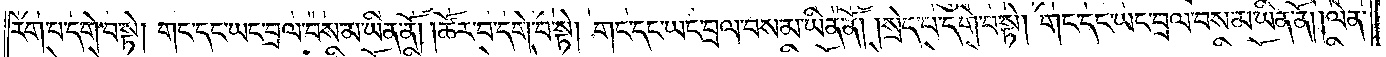རེག་པ་དགེ་བ་སྟེ། གང་དང་ཡང་བྲལ་བས་མ་ཡིན་ནོ། །ཚོར་བ་དགེ་བ་སྟེ། གང་དང་ཡང་བྲལ་བས་མ་ཡིན་ནོ། །སྲེད་པ་དགེ་བ་སྟེ། གང་དང་ཡང་བྲལ་བས་མ་ཡིན་ནོ། །ལེན་
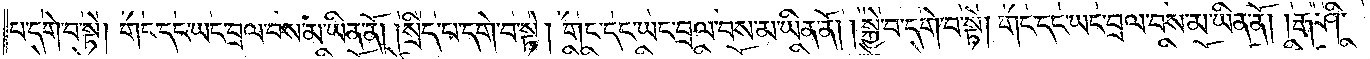པ་དགེ་བ་སྟེ། གང་དང་ཡང་བྲལ་བས་མ་ཡིན་ནོ། །སྲིད་པ་དགེ་བ་སྟེ། གང་དང་ཡང་བྲལ་བས་མ་ཡིན་ནོ། །སྐྱེ་བ་དགེ་བ་སྟེ། གང་དང་ཡང་བྲལ་བས་མ་ཡིན་ནོ། །རྒ་ཤི་
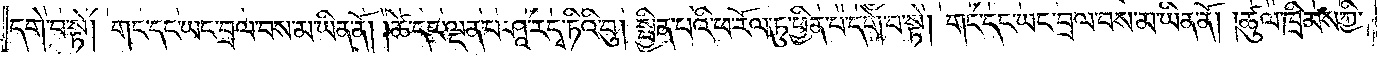དགེ་བ་སྟེ། གང་དང་ཡང་བྲལ་བས་མ་ཡིན་ནོ། །ཚེ་དང་ལྡན་པ་ཤཱ་ར་དྭ་ཏིའི་བུ། སྦྱིན་པའི་ཕ་རོལ་ཏུ་ཕྱིན་པ་དགེ་བ་སྟེ། གང་དང་ཡང་བྲལ་བས་མ་ཡིན་ནོ། །ཚུལ་ཁྲིམས་ཀྱི་
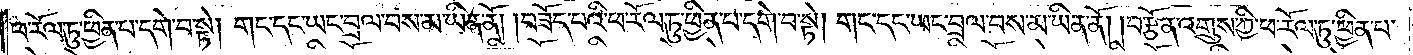ཕ་རོལ་ཏུ་ཕྱིན་པ་དགེ་བ་སྟེ། གང་དང་ཡང་བྲལ་བས་མ་ཡིན་ནོ། །བཟོད་པའི་ཕ་རོལ་ཏུ་ཕྱིན་པ་དགེ་བ་སྟེ། གང་དང་ཡང་བྲལ་བས་མ་ཡིན་ནོ། །བརྩོན་འགྲུས་ཀྱི་ཕ་རོལ་ཏུ་ཕྱིན་པ་
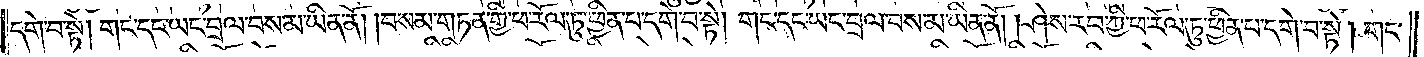དགེ་བ་སྟེ། གང་དང་ཡང་བྲལ་བས་མ་ཡིན་ནོ། །བསམ་གཏན་གྱི་ཕ་རོལ་ཏུ་ཕྱིན་པ་དགེ་བ་སྟེ། གང་དང་ཡང་བྲལ་བས་མ་ཡིན་ནོ། །ཤེས་རབ་ཀྱི་ཕ་རོལ་ཏུ་ཕྱིན་པ་དགེ་བ་སྟེ། གང་
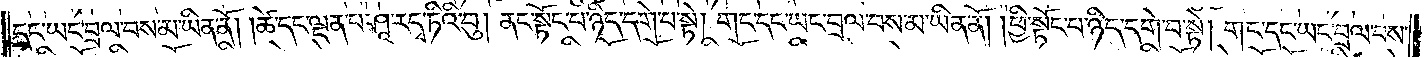དང་ཡང་བྲལ་བས་མ་ཡིན་ནོ། །ཚེ་དང་ལྡན་པ་ཤཱ་ར་དྭ་ཏིའི་བུ། ནང་སྟོང་པ་ཉིད་དགེ་བ་སྟེ། གང་དང་ཡང་བྲལ་བས་མ་ཡིན་ནོ། །ཕྱི་སྟོང་པ་ཉིད་དགེ་བ་སྟེ། གང་དང་ཡང་བྲལ་བས་
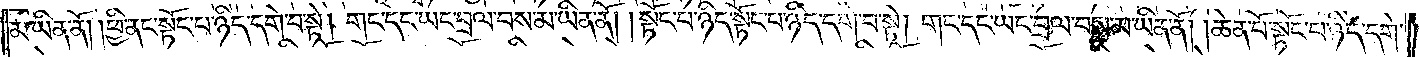མ་ཡིན་ནོ། །ཕྱི་ནང་སྟོང་པ་ཉིད་དགེ་བ་སྟེ། །གང་དང་ཡང་བྲལ་བས་མ་ཡིན་ནོ། །སྟོང་པ་ཉིད་སྟོང་པ་ཉིད་དགེ་བ་སྟེ། གང་དང་ཡང་བྲལ་བས་མ་ཡིན་ནོ། །ཆེན་པོ་སྟོང་པ་ཉིད་དགེ་
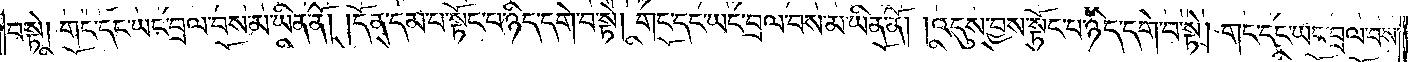བ་སྟེ། གང་དང་ཡང་བྲལ་བས་མ་ཡིན་ནོ། །དོན་དམ་པ་སྟོང་པ་ཉིད་དགེ་བ་སྟེ། གང་དང་ཡང་བྲལ་བས་མ་ཡིན་ནོ། །འདུས་བྱས་སྟོང་པ་ཉིད་དགེ་བ་སྟེ། གང་དང་ཡང་བྲལ་བས་
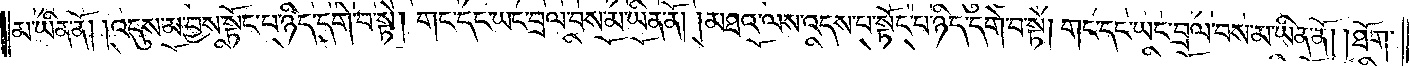མ་ཡིན་ནོ། །འདུས་མ་བྱས་སྟོང་པ་ཉིད་དགེ་བ་སྟེ། གང་དང་ཡང་བྲལ་བས་མ་ཡིན་ནོ། །མཐའ་ལས་འདས་པ་སྟོང་པ་ཉིད་དགེ་བ་སྟེ། གང་དང་ཡང་བྲལ་བས་མ་ཡིན་ནོ། །ཐོག་
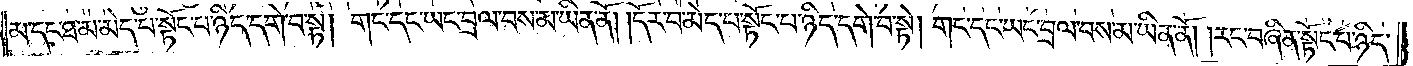མ་དང་ཐ་མ་མེད་པ་སྟོང་པ་ཉིད་དགེ་བ་སྟེ། གང་དང་ཡང་བྲལ་བས་མ་ཡིན་ནོ། །དོར་བ་མེད་པ་སྟོང་པ་ཉིད་དགེ་བ་སྟེ། གང་དང་ཡང་བྲལ་བས་མ་ཡིན་ནོ། །རང་བཞིན་སྟོང་པ་ཉིད་
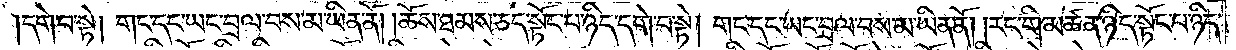དགེ་བ་སྟེ། གང་དང་ཡང་བྲལ་བས་མ་ཡིན་ནོ། །ཆོས་ཐམས་ཅད་སྟོང་པ་ཉིད་དགེ་བ་སྟེ། གང་དང་ཡང་བྲལ་བས་མ་ཡིན་ནོ། །རང་གི་མཚན་ཉིད་སྟོང་པ་ཉིད་
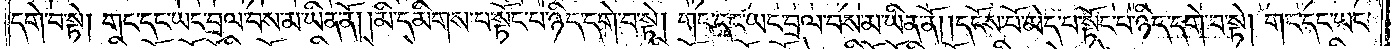དགེ་བ་སྟེ། གང་དང་ཡང་བྲལ་བས་མ་ཡིན་ནོ། །མི་དམིགས་པ་སྟོང་པ་ཉིད་དགེ་བ་སྟེ། གང་དང་ཡང་བྲལ་བས་མ་ཡིན་ནོ། །དངོས་པོ་མེད་པ་སྟོང་པ་ཉིད་དགེ་བ་སྟེ། གང་དང་ཡང་
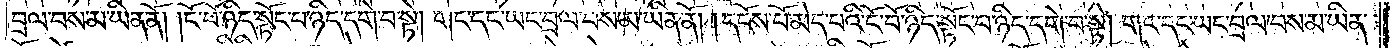བྲལ་བས་མ་ཡིན་ནོ། །ངོ་བོ་ཉིད་སྟོང་པ་ཉིད་དགེ་བ་སྟེ། གང་དང་ཡང་བྲལ་བས་མ་ཡིན་ནོ། །དངོས་པོ་མེད་པའི་ངོ་བོ་ཉིད་སྟོང་པ་ཉིད་དགེ་བ་སྟེ། གང་དང་ཡང་བྲལ་བས་མ་ཡིན་
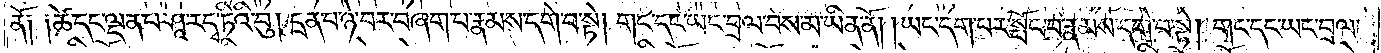ནོ༑ ༑ཚེ་དང་ལྡན་པ་ཤཱ་ར་དྭ་ཏིའི་བུ། དྲན་པ་ཉེ་བར་བཞག་པ་རྣམས་དགེ་བ་སྟེ། གང་དང་ཡང་བྲལ་བས་མ་ཡིན་ནོ། །ཡང་དག་པར་སྤོང་བ་རྣམས་དགེ་བ་སྟེ། གང་དང་ཡང་བྲལ་
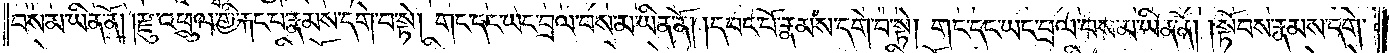བས་མ་ཡིན་ནོ། །རྫུ་འཕྲུལ་གྱི་རྐང་པ་རྣམས་དགེ་བ་སྟེ། གང་དང་ཡང་བྲལ་བས་མ་ཡིན་ནོ། །དབང་པོ་རྣམས་དགེ་བ་སྟེ། གང་དང་ཡང་བྲལ་བས་མ་ཡིན་ནོ། །སྟོབས་རྣམས་དགེ་
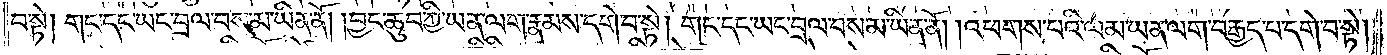བ་སྟེ། གང་དང་ཡང་བྲལ་བས་མ་ཡིན་ནོ། །བྱང་ཆུབ་ཀྱི་ཡན་ལག་རྣམས་དགེ་བ་སྟེ། གང་དང་ཡང་བྲལ་བས་མ་ཡིན་ནོ། །འཕགས་པའི་ལམ་ཡན་ལག་བརྒྱད་པ་དགེ་བ་སྟེ།
